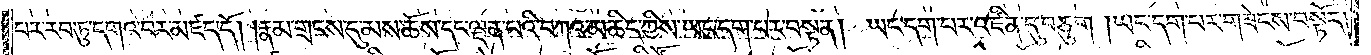པར་རབ་ཏུ་དགའ་བར་མཛད་དོ། །རྣམ་གྲངས་དུ་མས་ཆོས་དང་ལྡན་པའི་བཀའ་མཆིད་ཀྱིས་ཡང་དག་པར་བསྟན། ཡང་དག་པར་འཛིན་དུ་བཅུག །ཡང་དག་པར་གཟེངས་བསྟོད།
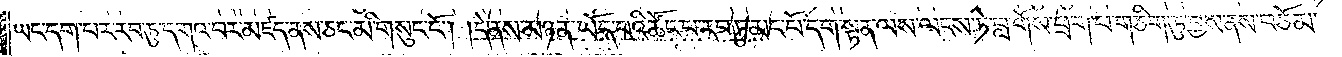ཡང་དག་པར་རབ་ཏུ་དགའ་བར་མཛད་ནས་ཅང་མི་གསུང་ངོ༌། །དེ་ནས་མཉན་ཡོད་པའི་ཚོང་པ་རབ་ཏུ་མང་པོ་དག་སྟན་ལས་ལངས་ཏེ་བླ་གོས་ཕྲག་པ་གཅིག་ཏུ་བྱས་ནས་བཅོམ་
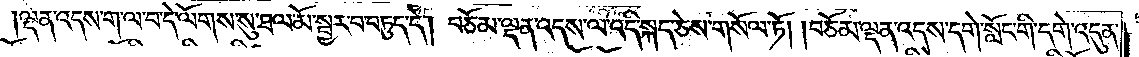ལྡན་འདས་ག་ལ་བ་དེ་ལོགས་སུ་ཐལ་མོ་སྦྱར་བ་བཏུད་དེ། བཅོམ་ལྡན་འདས་ལ་འདི་སྐད་ཅེས་གསོལ་ཏོ། །བཅོམ་ལྡན་འདས་དགེ་སློང་གི་དགེ་འདུན་
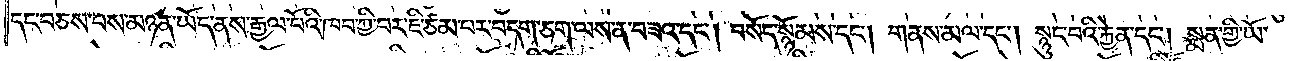དང་བཅས་པས་མཉན་ཡོད་ནས་རྒྱལ་པོའི་ཁབ་ཀྱི་བར་ཇི་ཙམ་བར་བདག་ཅག་ལས་ན་བཟའ་དང༌། བསོད་སྙོམས་དང༌། གནས་མལ་དང༌། སྙུང་བའི་རྐྱེན་དང༌། སྨན་གྱི་ཡོ་
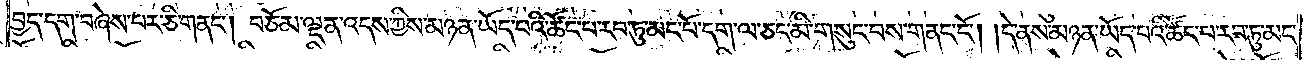བྱད་དག་བཞེས་བར་ཅི་གནང༌། བཅོམ་ལྡན་འདས་ཀྱིས་མཉན་ཡོད་པའི་ཚོང་པ་རབ་ཏུ་མང་པོ་དག་ལ་ཅང་མི་གསུང་བས་གནང་ངོ༌། །དེ་ནས་མཉན་ཡོད་པའི་ཚོང་པ་རབ་ཏུ་མང་
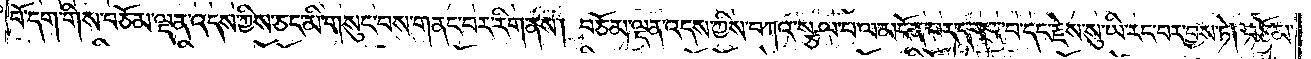པོ་དག་གིས་བཅོམ་ལྡན་འདས་ཀྱིས་ཅང་མི་གསུང་བས་གནང་བར་རིག་ནས། བཅོམ་ལྡན་འདས་ཀྱིས་བཀའ་སྩལ་པ་ལ་མངོན་པར་དགའ་བ་དང་རྗེས་སུ་ཡི་རང་བར་བྱས་ཏེ། བཅོམ་
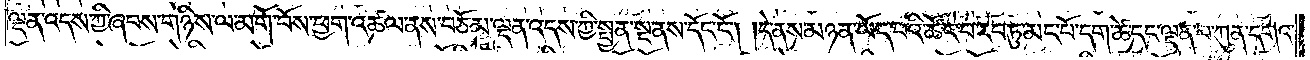ལྡན་འདས་ཀྱི་ཞབས་གཉིས་ལ་མགོ་བོས་ཕྱག་འཚལ་ནས་བཅོམ་ལྡན་འདས་ཀྱི་སྤྱན་སྔ་ནས་དོང་ངོ༌། །དེ་ནས་མཉན་ཡོད་པའི་ཚོང་བ་རབ་ཏུ་མང་པོ་དག་ཚེ་དང་ལྡན་པ་ཀུན་དགའ་
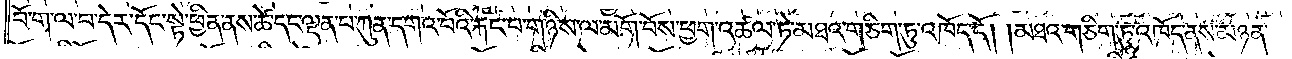བོ་ག་ལ་བ་དེར་དོང་སྟེ་ཕྱིན་ནས་ཚེ་དང་ལྡན་པ་ཀུན་དགའ་བོའི་རྐང་པ་གཉིས་ལ་མགོ་བོས་ཕྱག་འཚལ་ཏེ་མཐའ་གཅིག་ཏུ་འཁོད་དོ། །མཐའ་གཅིག་ཏུ་འཁོད་ནས་མཉན་
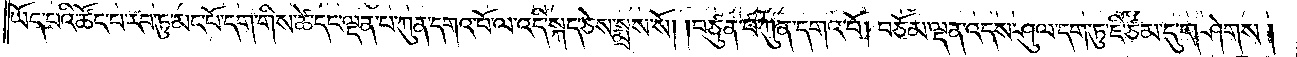ཡོད་པའི་ཚོང་པ་རབ་ཏུ་མང་པོ་དག་གིས་ཚེ་དང་ལྡན་པ་ཀུན་དགའ་བོ་ལ་འདི་སྐད་ཅེས་སྨྲས་སོ། །བཙུན་པ་ཀུན་དགའ་བོ། བཅོམ་ལྡན་འདས་ཤུལ་དག་ཏུ་ཇི་ཙམ་དུ་གཤེགས།
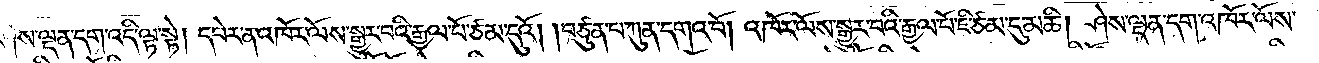ཤེས་ལྡན་དག་འདི་ལྟ་སྟེ། དཔེར་ན་འཁོར་ལོས་སྒྱུར་བའི་རྒྱལ་པོ་ཙམ་དུའོ། །བཙུན་པ་ཀུན་དགའ་བོ། འཁོར་ལོས་སྒྱུར་བའི་རྒྱལ་པོ་ཇི་ཙམ་དུ་མཆི། ཤེས་ལྡན་དག་འཁོར་ལོས་
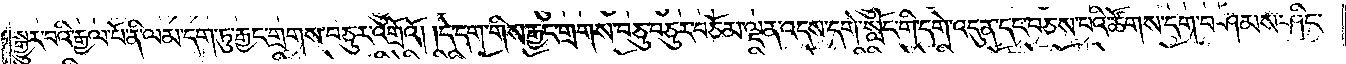སྒྱུར་བའི་རྒྱལ་པོ་ནི་ལམ་དག་ཏུ་རྒྱང་གྲགས་བཅུར་འགྲོའོ། །དེ་དག་གིས་རྒྱང་གྲགས་བཅུ་བཅུར་བཅོམ་ལྡན་འདས་དགེ་སློང་གི་དགེ་འདུན་དང་བཅས་པའི་ཚོགས་དག་བཤམས་ཤིང་
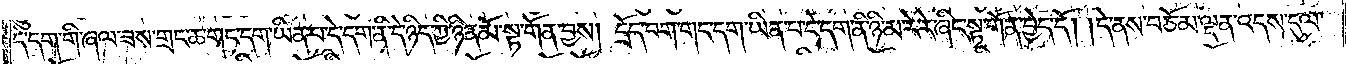དེ་དག་གི་ཞལ་ཟས་གྲང་ཆ་གང་དག་ཡིན་པ་དེ་དག་ནི་དེ་ཉིད་ཀྱི་ཉིན་མོ་སྟ་གོན་བྱས། དྲོད་བག་གང་དག་ཡིན་པ་དེ་དག་ནི་ཉི་མ་རེ་རེ་ཞིང་སྟ་གོན་བྱེད་དོ། །དེ་ནས་བཅོམ་ལྡན་འདས་དུལ་
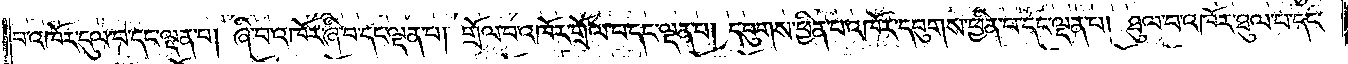བ་འཁོར་དུལ་བ་དང་ལྡན་པ། ཞི་བ་འཁོར་ཞི་བ་དང་ལྡན་པ། གྲོལ་བ་འཁོར་གྲོལ་བ་དང་ལྡན་པ། དབུགས་ཕྱིན་པ་འཁོར་དབུགས་ཕྱིན་པ་དང་ལྡན་པ། ཐུལ་བ་འཁོར་ཐུལ་བ་དང་
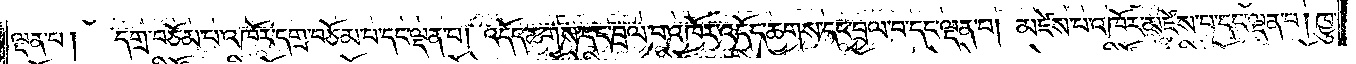ལྡན་པ།  དགྲ་བཅོམ་པ་འཁོར་དགྲ་བཅོམ་པ་དང་ལྡན་པ། འདོད་ཆགས་དང་བྲལ་བ་འཁོར་འདོད་ཆགས་དང་བྲལ་བ་དང་ལྡན་པ། མཛེས་པ་འཁོར་མཛེས་པ་དང་ལྡན་པ། ཁྱུ་
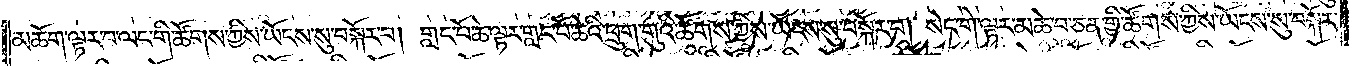མཆོག་ལྟར་བ་ལང་གི་ཚོགས་ཀྱིས་ཡོངས་སུ་བསྐོར་བ། གླང་པོ་ཆེ་ལྟར་གླང་པོ་ཆེའི་ཕྲུག་གུའི་ཚོགས་ཀྱིས་ཡོངས་སུ་བསྐོར་བ། སེང་གེ་ལྟར་མཆེ་བ་ཅན་གྱི་ཚོགས་ཀྱིས་ཡོངས་སུ་བསྐོར་
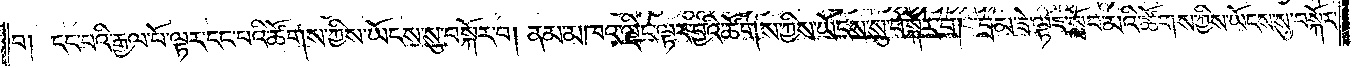བ། ངང་པའི་རྒྱལ་པོ་ལྟར་ངང་པའི་ཚོགས་ཀྱིས་ཡོངས་སུ་བསྐོར་བ། ནམ་མཁའ་ལྡིང་ལྟར་བྱའི་ཚོགས་ཀྱིས་ཡོངས་སུ་བསྐོར་བ། བྲམ་ཟེ་ལྟར་སློབ་མའི་ཚོགས་ཀྱིས་ཡོངས་སུ་བསྐོར་
